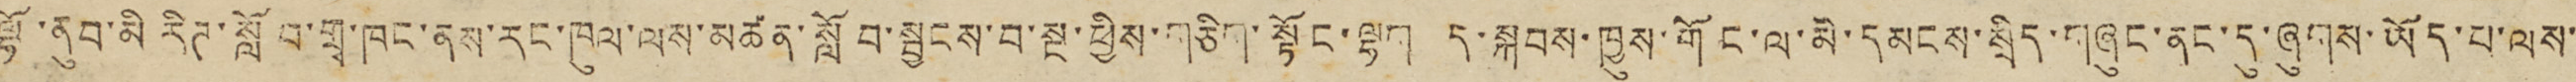ལྷོ་ནུབ་མི རིཊ་སློབ་གྲྭ་ཁང་ནས་རང་ཁུལ་ལས་མཚན་སློབ་སྦྱངས་བ་སྔ་ཕྱིས་གཅིག་སྟོང་ལྷག ད་སྐབས་ཁྱུས་གོང་ལ་མི་དམངས་སྲིད་གཞུང་དུ་ཞུགས་ཡོད་པ་ལས་
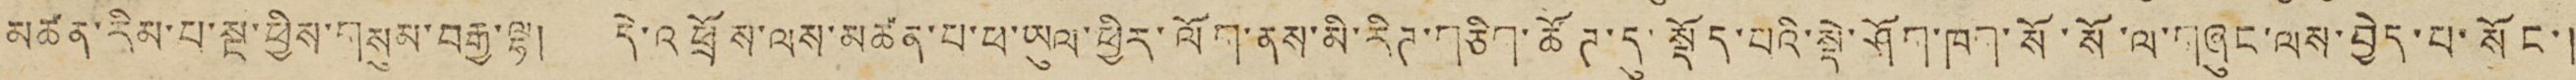མཚན་རིམ་པ་སྔ་ཕྱིས་གསུམ་བརྒྱ་ལྷ། དེ་འཕྲོས་ལས་མཚན་པ་ཕ་ཡུལ་ཕྱིར་ལོག་ནས་མི་རིཊ་གཅིག་ཚོཊ་དུ་སྡོད་པའི་སྡེ་ཤོག་ཁག་སོ་སོ་ལ་གཞུང་ལས་བྱེད་པ་སོང་།
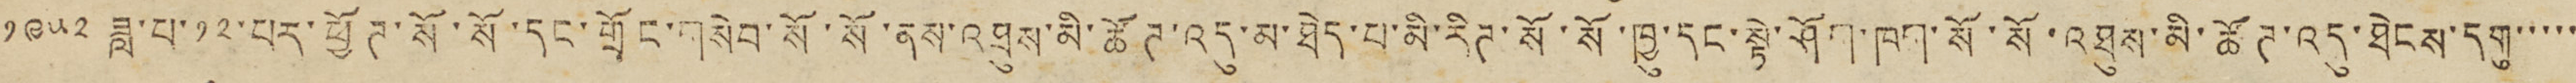༡༩༥༢ ཟླ་བ་༡༢་པར་ཕྱོཊ་སོ་སོ་དང་གོང་གསེབ་སོ་སོ་ནས་འཐུས་མི་ཚོཊ་འདུ་མ་ཐེད་པ་མི་རིཊ་སོ་སོ་ཁྱུ་དང་སྟེ་ཤོག་ཁག་སོ་སོ་འཐསུ་མི་ཚོཊ་འདུ་ཐེངས་དགུ་་་་་
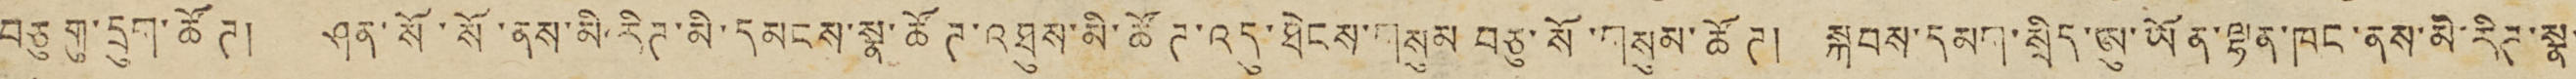བཅུ གུ་དྲུག་ཚོཊ། ཤན་སོ་སོ་ནས་མི་རིཊ་མི་དམངས་སྣ་ཚོཊ་འཐུས་མི་ཚོཊ་འདུ་ཐེངས་གསུམ བཅུ་སོ་གསུམ་ཚོཊ། སྐབས་དམག་སྲིད་ཨུ་ཡོན་ལྷན་ཁང་ནས་མེ་རིཊ་སྣ་
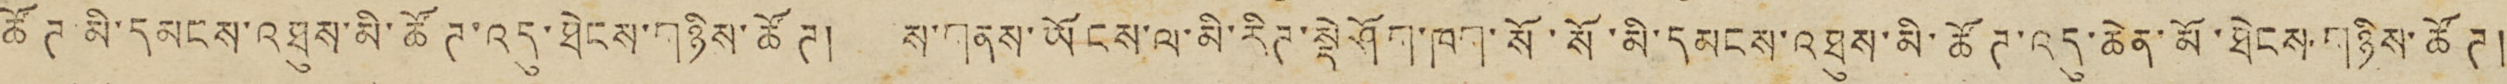ཚོཊ་མི་དམངས་འཐུས་མི་ཚོཊ་འདུ་ཐེངས་གཉིས་ཚོཊ། ས་གནས་ཡོངས་ལ་མི་རིཊ་སྡེཤོག་ཁག་སོ་སོ་མི་དམངས་འཐུས་མི་ཚོཊ་འདུ་ཆེན་མོ་ཐེངས་གཉིས་ཚོཊ།
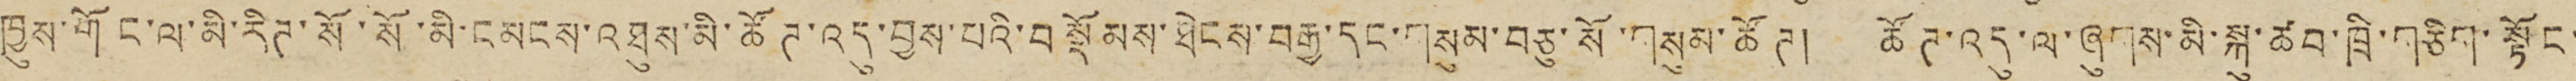ཁྱུས་གོང་ལ་མི་རིཊ་སོ་སོ་མི་དམངས་འཐུས་མི་ཚོཊ་འདུ་བྱས་པའི་བསྡོམས་ཐེངས་བརྒྱ་དང་གསུམ་བཅུ་སོ་གསུམ་ཚོཊ། ཚོཊ་འདུ་ལ་ཞུགས་མི་སྐུ་ཚབ་ཁྲི་གཅིག་སྟོང་
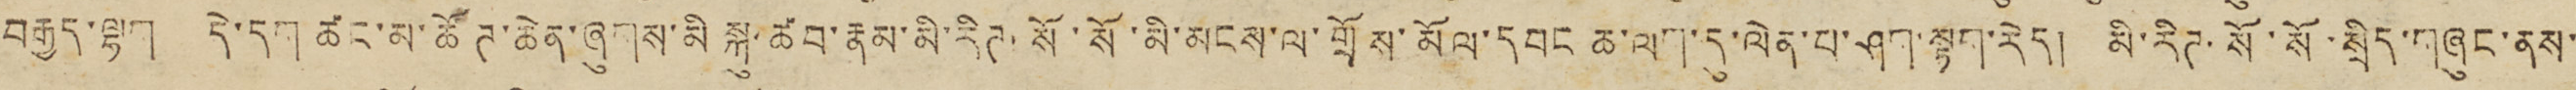བརྒྱད་ལྷག དེ་དག ཚང་མ་ཚོཊ་ཆེན་ཞུགས་མི སྐུ་ཚབ་རྣམ་མི་རིཊ་སོ་སོ་མི་མངས་ལ་གྲོས་མོལ་དབང ཆ་ལག་དུ་ལེན་པ་ཤག་སྟག་རེད། མི་རིཊ་སོ་སོ་སྲིད་གཞུང་ནས་
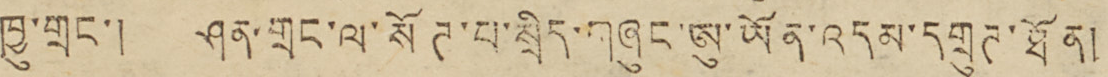ཁྱུ་གྲང་། ཤན་གྲང་ལ་སོཊ་པ་སྲིད་གཞུང་ཨུ་ཡོན་འདམ་དགྲུཊ་ཐོན།
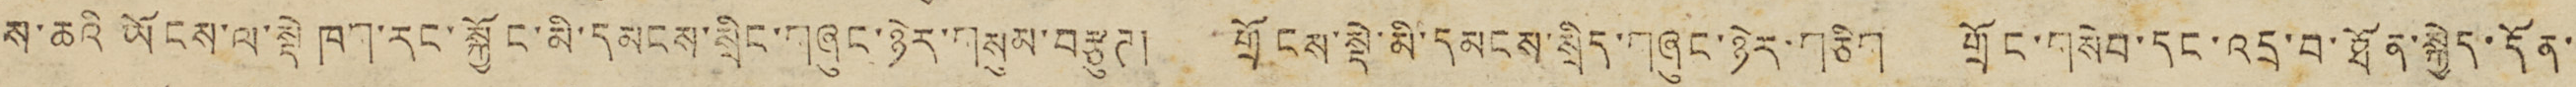ས་ཆའི ཡོངས་ལ་སྡེ ཁག་རང་སྐྱོང་མི་དམངས་སྲིང་གཞུང་ཉེར་གསུམ་བརྩུཊ། གྲོངས་སྡེ་མི་དམངས་སྲིད་གཞུང་ཉེར་གཅིག གྲོང་གསེབ་དང་འདྲ་བ་ཐོན་སྐྱེད་དོན་
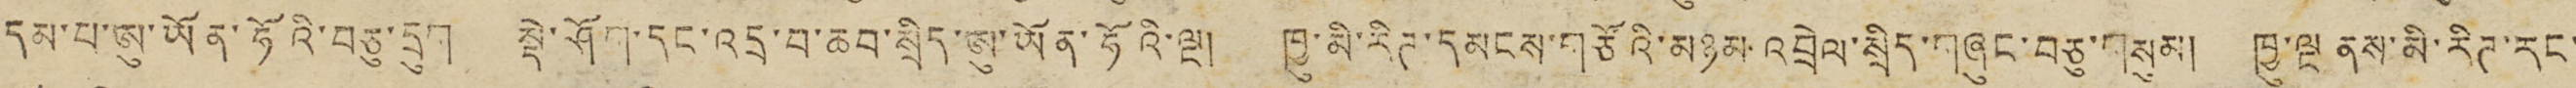དམ་པ་ཨུ་ཡོན་ཧོའི་བཅུ་དྲུག སྡེ་ཤོག་དང་འདྲ་བ་ཆབ་སྲིད་ཨུ་ཡོན་ཧོའི་ལྔ། ཁྱུ་མི་རིཊ་དམངས་གཙོའི་མཉམ་འབྲེལ་སྲིད་གཞུང་བཅུ་གསུམ། ཁྱུ་ལྔ ནས་མི་རིཊ་རང་
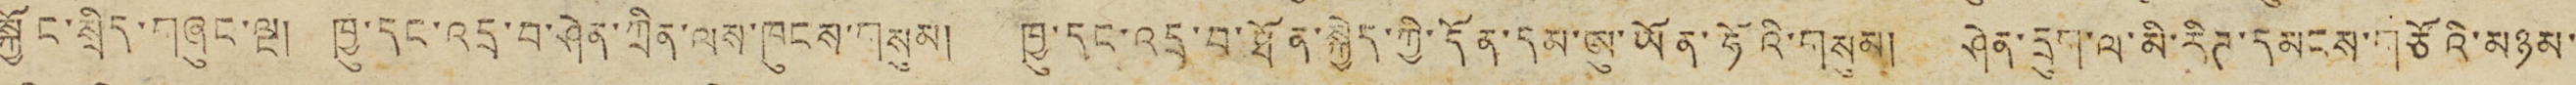སྐྱོང་སྲིད་གཞུང་ལྔ། ཁྱུ་དང་འདྲ་བ་ཤེན་ཀྲིན་ལས་ཁུངས་གསུམ། ཁྱུ་དང་འདྲ་བ་ཐོན་སྐྱེད་ཀྱི་དོན་དམ་ཨུ་ཡོན་ཧོའི་གསུམ། ཤེན་དྲུག་ལ་མི་རིཊ་དམངས་གཙོའི་མཉམ་
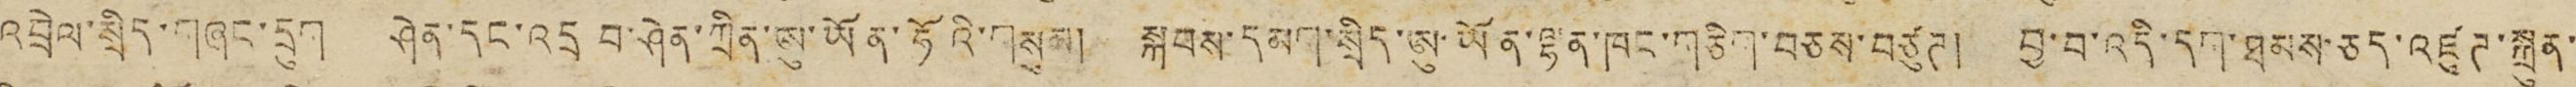འབྲེལ་སྲིད་གཞང་དྲུག ཤེན་དང་འདྲ བ་ཤེན་ཀྲིན་ཨུ་ཡོན་ཧོའི་གསུམ། སྐབས་དམག་སྲིད་ཨུ་ཡོན་ལྷན་ཁང་གཅིག་བཅས་བཙུཊ། བུ་བ་འདི་དག་ཐམས་ཅད་འཛུཊ་སྐྲུན་
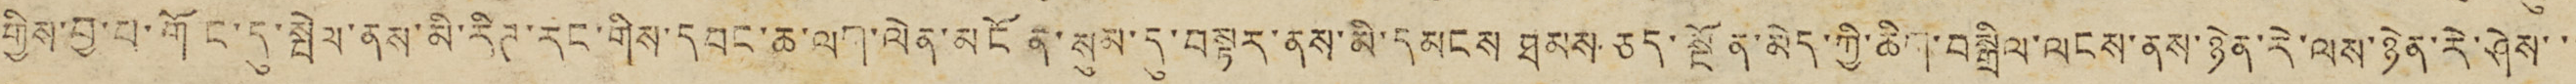གྱིས་བྱ་བ་གོང་དུ་སྤེལ་ནས་མི་རིཊ་རང་གིས་དབང་ཆ་ལག་ལེན་མངོན་སུམ་དུ་བསྟར་ནས་མི་དམངས ཐམས་ཅད་སྔོན་མེད་ཀྱི་ཆིག་བསྒྲིལ་ལངས་ནས་ཉེན་རེ་ལས་ཉེན་རེ་ཤེས་་་
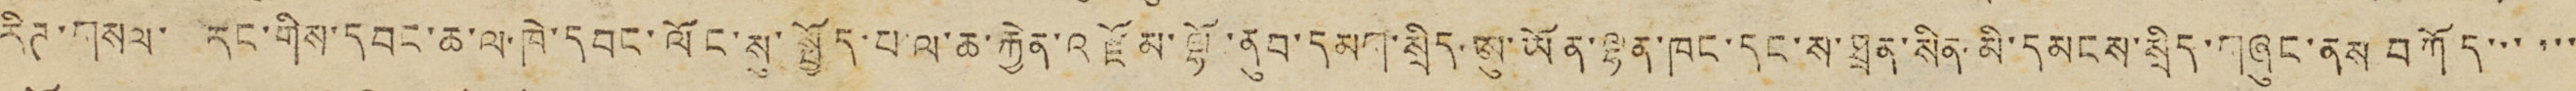རིཊ་གསལ་ རང་གིས་དབང་ཆ་ལ་ཁེ་དབང་ལོང་སུ་སྤྱོད་པ་ལ་ཆ་རྐྱེན་འཛོམ་ལྷོ་ནུབ་དམག་སྲིད་ཨུ་ཡོན་ལྷན་ཁང་དང་ས་ཐྲན་སིན་མི་དམངས་སྲིད་གཞུང་ནས བཀོད་་་་་་
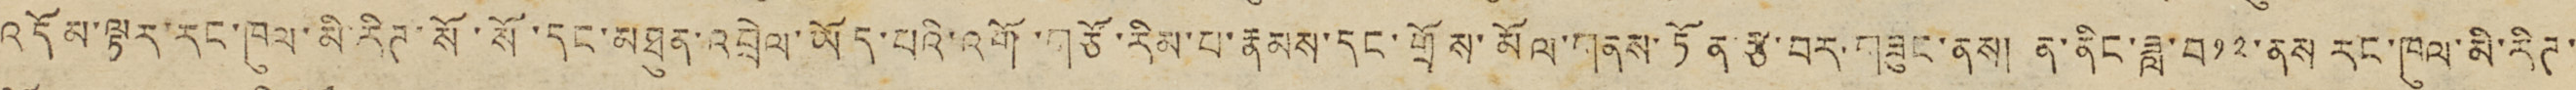འདོམ་ལྟར་རང་ཁུལ་མི་རིཊ་སོ་སོ་དང་མཐུན་འབྲེལ་ཡོད་པའི་འགོ་གཙོ་རིམ་པ་རྣམས་དང་གྲོས་མོལ་གནས་ཏོན་རྩ་བར་གཟུང་ནས། ན་ནིང་ཟླ་བ༡༢་ནས རང་ཁུལ་མི་རིཊ་
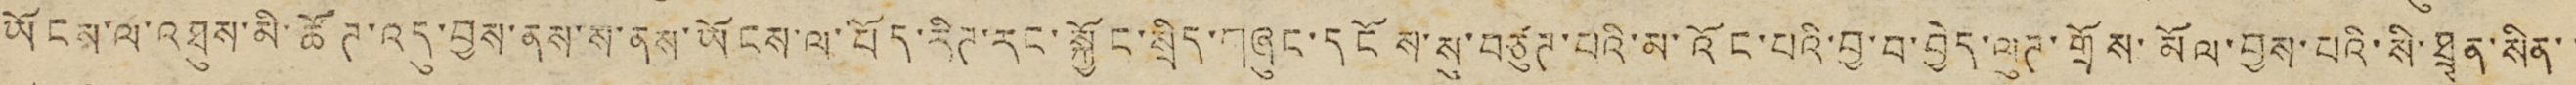ཡོངས་ལ་འཐུས་མི་ཚོཊ་འདུ་བྱས་ནས་ས་ནས་ཡོངས་ལ་བོད་རིཊ་རང་སྐྱོང་སྲིད་གཞུང་དངོས་སུ་བཙུཊ་པའི་མ་འོང་པའི་བྱ་བ་བྱེད་ལུཊ་གྲོས་མོལ་བྱས་པའི་སི་ཐྲྭན་སིན་་
